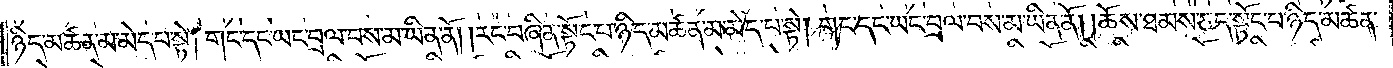ཉིད་མཚན་མ་མེད་པ་སྟེ། གང་དང་ཡང་བྲལ་བས་མ་ཡིན་ནོ། །རང་བཞིན་སྟོང་པ་ཉིད་མཚན་མ་མེད་པ་སྟེ། གང་དང་ཡང་བྲལ་བས་མ་ཡིན་ནོ། །ཆོས་ཐམས་ཅད་སྟོང་པ་ཉིད་མཚན་
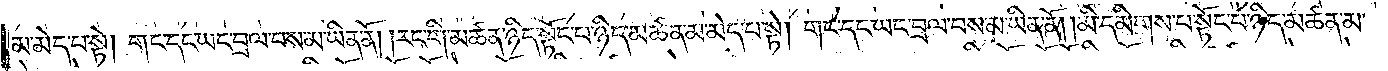མ་མེད་པ་སྟེ། གང་དང་ཡང་བྲལ་བས་མ་ཡིན་ནོ། །རང་གི་མཚན་ཉིད་སྟོང་པ་ཉིད་མཚན་མ་མེད་པ་སྟེ། གང་དང་ཡང་བྲལ་བས་མ་ཡིན་ནོ། །མི་དམིགས་པ་སྟོང་པ་ཉིད་མཚན་མ་
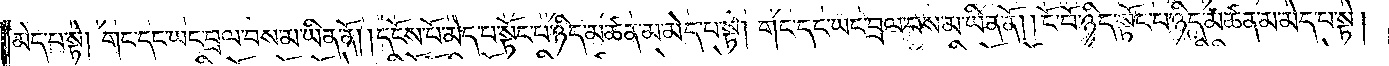མེད་པ་སྟེ། གང་དང་ཡང་བྲལ་བས་མ་ཡིན་ནོ། །དངོས་པོ་མེད་པ་སྟོང་པ་ཉིད་མཚན་མ་མེད་པ་སྟེ། གང་དང་ཡང་བྲལ་བས་མ་ཡིན་ནོ། །ངོ་བོ་ཉིད་སྟོང་པ་ཉིད་མཚན་མ་མེད་པ་སྟེ།
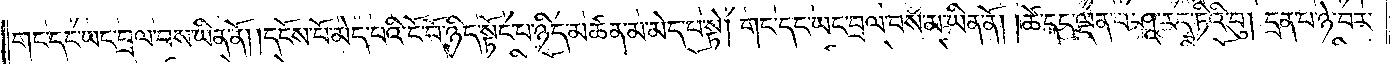གང་དང་ཡང་བྲལ་བས་མ་ཡིན་ནོ། །དངོས་པོ་མེད་པའི་ངོ་བོ་ཉིད་སྟོང་པ་ཉིད་མཚན་མ་མེད་པ་སྟེ། གང་དང་ཡང་བྲལ་བས་མ་ཡིན་ནོ། །ཚེ་དང་ལྡན་པ་ཤཱ་ར་དྭ་ཏིའི་བུ། དྲན་པ་ཉེ་བར་
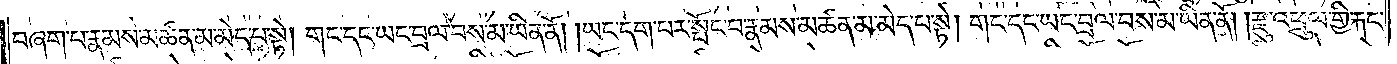བཞག་པ་རྣམས་མཚན་མ་མེད་པ་སྟེ། གང་དང་ཡང་བྲལ་བས་མ་ཡིན་ནོ། །ཡང་དག་པར་སྤོང་བ་རྣམས་མཚན་མ་མེད་པ་སྟེ། གང་དང་ཡང་བྲལ་བས་མ་ཡིན་ནོ། རྫུ་འཕྲུལ་གྱི་རྐང་
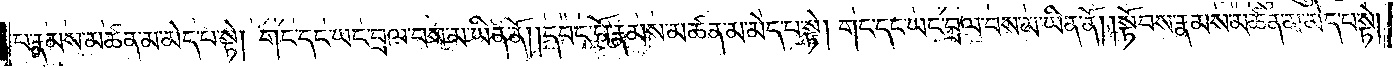པ་རྣམས་མཚན་མ་མེད་པ་སྟེ། གང་དང་ཡང་བྲལ་བས་མ་ཡིན་ནོ། །དབང་པོ་རྣམས་མཚན་མ་མེད་པ་སྟེ། གང་དང་ཡང་བྲལ་བས་མ་ཡིན་ནོ། །སྟོབས་རྣམས་མཚན་མ་མེད་པ་སྟེ།
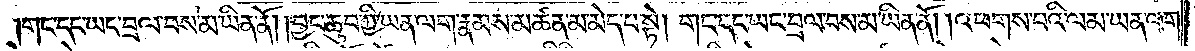གང་དང་ཡང་བྲལ་བས་མ་ཡིན་ནོ། །བྱང་ཆུབ་ཀྱི་ཡན་ལག་རྣམས་མཚན་མ་མེད་པ་སྟེ། གང་དང་ཡང་བྲལ་བས་མ་ཡིན་ནོ། །འཕགས་པའི་ལམ་ཡན་ལག་
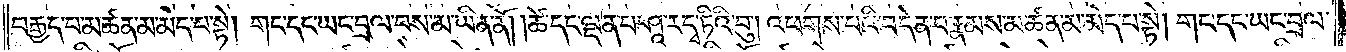བརྒྱད་པ་མཚན་མ་མེད་པ་སྟེ། གང་དང་ཡང་བྲལ་བས་མ་ཡིན་ནོ། །ཚེ་དང་ལྡན་པ་ཤཱ་ར་དྭ་ཏིའི་བུ། འཕགས་པའི་བདེན་པ་རྣམས་མཚན་མ་མེད་པ་སྟེ། གང་དང་ཡང་བྲལ་
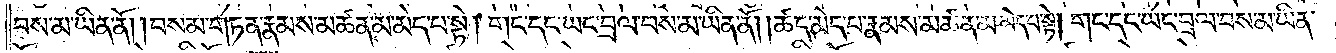བས་མ་ཡིན་ནོ། །བསམ་གཏན་རྣམས་མཚན་མ་མེད་པ་སྟེ། གང་དང་ཡང་བྲལ་བས་མ་ཡིན་ནོ། །ཚད་མེད་པ་རྣམས་མཚན་མ་མེད་པ་སྟེ། གང་དང་ཡང་བྲལ་བས་མ་ཡིན་
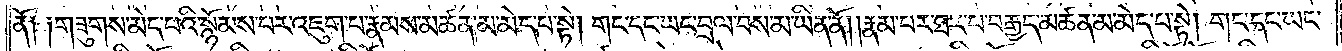ནོ༑ ༑གཟུགས་མེད་པའི་སྙོམས་པར་འཇུག་པ་རྣམས་མཚན་མ་མེད་པ་སྟེ། གང་དང་ཡང་བྲལ་བས་མ་ཡིན་ནོ། །རྣམ་པར་ཐར་པ་བརྒྱད་མཚན་མ་མེད་པ་སྟེ། གང་དང་ཡང་
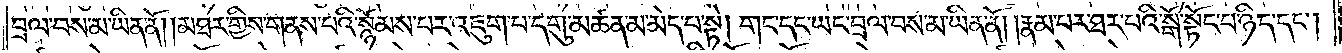བྲལ་བས་མ་ཡིན་ནོ། །མཐར་གྱིས་གནས་པའི་སྙོམས་པར་འཇུག་པ་དགུ་མཚན་མ་མེད་པ་སྟེ། གང་དང་ཡང་བྲལ་བས་མ་ཡིན་ནོ། །རྣམ་པར་ཐར་པའི་སྒོ་སྟོང་པ་ཉིད་དང༌།
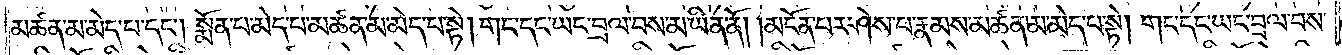མཚན་མ་མེད་པ་དང༌། སྨོན་པ་མེད་པ་མཚན་མ་མེད་པ་སྟེ། གང་དང་ཡང་བྲལ་བས་མ་ཡིན་ནོ། །མངོན་པར་ཤེས་པ་རྣམས་མཚན་མ་མེད་པ་སྟེ། གང་དང་ཡང་བྲལ་བས་
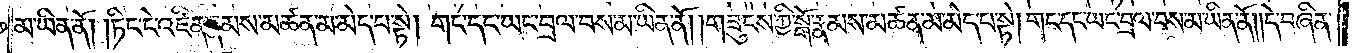མ་ཡིན་ནོ། །ཏིང་ངེ་འཛིན་རྣམས་མཚན་མ་མེད་པ་སྟེ། གང་དང་ཡང་བྲལ་བས་མ་ཡིན་ནོ། །གཟུངས་ཀྱི་སྒོ་རྣམས་མཚན་མ་མེད་པ་སྟེ། གང་དང་ཡང་བྲལ་བས་མ་ཡིན་ནོ། །དེ་བཞིན་
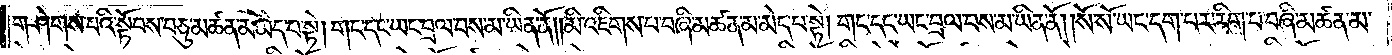གཤེགས་པའི་སྟོབས་བཅུ་མཚན་མ་མེད་པ་སྟེ། གང་དང་ཡང་བྲལ་བས་མ་ཡིན་ནོ། །མི་འཇིགས་པ་བཞི་མཚན་མ་མེད་པ་སྟེ། གང་དང་ཡང་བྲལ་བས་མ་ཡིན་ནོ། །སོ་སོ་ཡང་དག་པར་རིག་པ་བཞི་མཚན་མ་
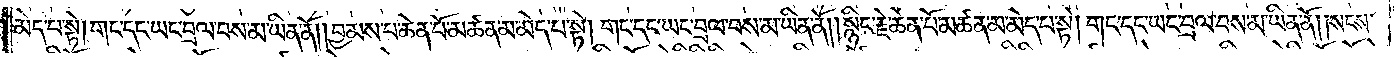མེད་པ་སྟེ། གང་དང་ཡང་བྲལ་བས་མ་ཡིན་ནོ། །བྱམས་པ་ཆེན་པོ་མཚན་མ་མེད་པ་སྟེ། གང་དང་ཡང་བྲལ་བས་མ་ཡིན་ནོ། །སྙིང་རྗེ་ཆེན་པོ་མཚན་མ་མེད་པ་སྟེ། གང་དང་ཡང་བྲལ་བས་མ་ཡིན་ནོ། །སངས་
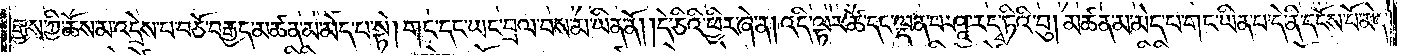རྒྱས་ཀྱི་ཆོས་མ་འདྲེས་པ་བཅོ་བརྒྱད་མཚན་མ་མེད་པ་སྟེ། གང་དང་ཡང་བྲལ་བས་མ་ཡིན་ནོ། །དེ་ཅིའི་ཕྱིར་ཞེ་ན། འདི་ལྟར་ཚེ་དང་ལྡན་པ་ཤཱ་ར་དྭ་ཏིའི་བུ། མཚན་མ་མེད་པ་གང་ཡིན་པ་དེ་ནི་དངོས་པོ་མེད་
